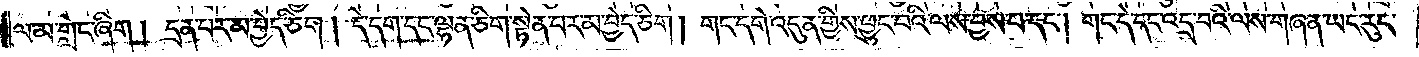ལ་མ་གླེང་ཞིག། དྲན་པར་མ་བྱེད་ཅིག། དེ་དག་དང་ལྷན་ཅིག་སྟེན་པར་མ་བྱེད་ཅིག། གང་དགེ་འདུན་གྱིས་ཕྱུང་བའི་ལས་བྱས་པ་དང༌། གང་དེ་དང་འདྲ་བའི་ལས་གཞན་ཡང་རུང་
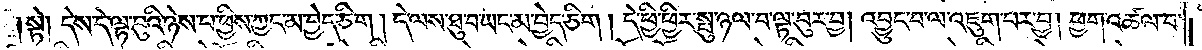སྟེ༑ དེས་དེ་ལྟ་བུའི་ཉེས་པ་ཕྱིས་ཀྱང་མ་བྱེད་ཅིག། དེ་ལས་ཐུ་བ་ཡང་མ་བྱེད་ཅིག། དེ་ཕྱི་ཕྱིར་སྤུ་ཉལ་བ་ལྟ་བུར་བྱ། འབྱུང་བ་ལ་འཇུག་པར་བྱ། ཕྱག་འཚལ་བ་
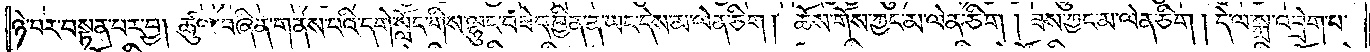ཉེ་བར་བསྟན་པར་བྱ། ཚུལ་བཞིན་གནས་པའི་དགེ་སློང་གིས་ལྷུང་བཟེད་བྱིན་ན་ཡང་དེས་མ་ལེན་ཅིག། ཆོས་གོས་ཀྱང་མ་ལེན་ཅིག །ཟས་ཀྱང་མ་ལེན་ཅིག །དེ་ལ་སྐྲ་འབྲེག་པ་
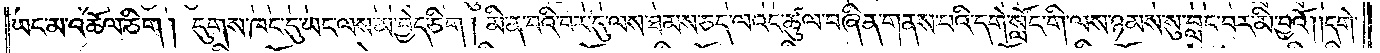ཡང་མ་འཆོལ་ཅིག། དུགས་ཁང་དུ་ཡང་ལས་མ་བྱེད་ཅིག། མི་ན་བའི་བར་དུ་ལས་ཐམས་ཅད་ལའང་ཚུལ་བཞིན་གནས་པའི་དགེ་སློང་གིས་ལས་ཉམས་སུ་བླང་བར་མི་བྱའོ། །དགེ་
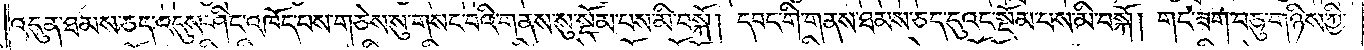འདུན་ཐམས་ཅད་འདུས་ཤིང་འཁོད་པས་གཅེས་སུ་གསང་བའི་གནས་སུ་སྡོམ་པས་མི་བསྐོ། དབང་གི་གནས་ཐམས་ཅད་དུའང་སྡོམ་པས་མི་བསྐོ། གང་ཟག་བཅུ་གཉིས་ཀྱི་
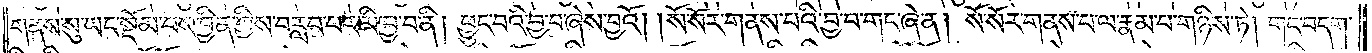གནས་སུ་ཡང་སྡོམ་པས་བྱིན་གྱིས་བརླབ་པར་མི་བྱ་བ་ནི། ཕྱུང་བའི་བྱ་བ་ཞེས་བྱའོ། །སོ་སོར་གནས་པའི་བྱ་བ་གང་ཞེ་ན། སོ་སོར་གནས་པ་ལ་རྣམ་པ་གཉིས་ཏེ། གང་བདག་
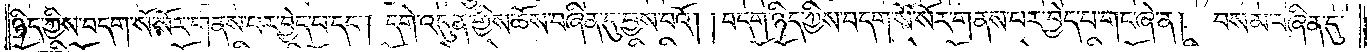ཉིད་ཀྱིས་བདག་སོ་སོར་གནས་པར་བྱེད་པ་དང༌། དགེ་འདུན་གྱིས་ཆོས་བཞིན་དུ་བྱས་པའོ། །བདག་ཉིད་ཀྱིས་བདག་སོ་སོར་གནས་པར་བྱེད་པ་གང་ཞེ་ན། བསམ་བཞིན་དུ་
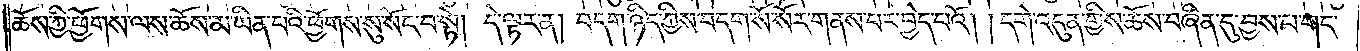ཆོས་ཀྱི་ཕྱོགས་ལས་ཆོས་མ་ཡིན་པའི་ཕྱོགས་སུ་སོང་བ་སྟེ། དེ་ལྟར་ན། བདག་ཉིད་ཀྱིས་བདག་སོ་སོར་གནས་པར་བྱེད་པའོ། །དགེ་འདུན་གྱིས་ཆོས་བཞིན་དུ་བྱས་པ་གང་
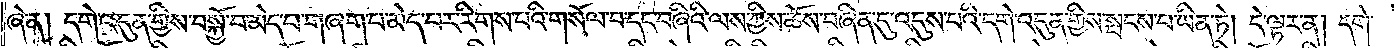ཞེ་ན། དགེ་འདུན་གྱིས་བསྐྱོ་བ་མེད་པ་གཞག་པ་མེད་པར་རིགས་པའི་གསོལ་བ་དང་བཞིའི་ལས་ཀྱིས་ཆོས་བཞིན་དུ་འདུས་པའི་དགེ་འདུན་གྱིས་སྤངས་པ་ཡིན་ཏེ། དེ་ལྟར་ན། དགེ་
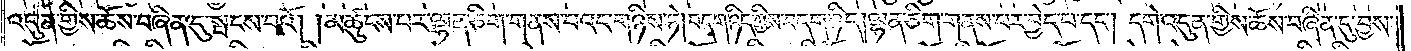འདུན་གྱིས་ཆོས་བཞིན་དུ་སྤངས་པའོ། །མཚུངས་པར་ལྷན་ཅིག་གནས་པའང་གཉིས་ཏེ། བདག་ཉིད་ཀྱིས་བདག་ཉིད། ལྷན་ཅིག་གནས་པར་བྱེད་པ་དང༌། དགེ་འདུན་གྱིས་ཆོས་བཞིན་དུ་བྱས་
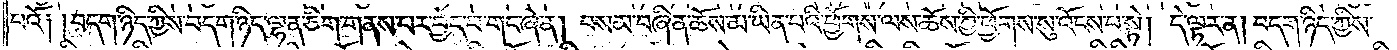པའོ། །བདག་ཉིད་ཀྱིས་བདག་ཉིད་ལྷན་ཅིག་གནས་པར་བྱེད་པ་གང་ཞེ་ན། བསམ་བཞིན་ཆོས་མ་ཡིན་པའི་ཕྱོགས་ལས་ཆོས་ཀྱི་ཕྱོགས་སུ་འོངས་པ་སྟེ། དེ་ལྟར་ན། བདག་ཉིད་ཀྱིས་
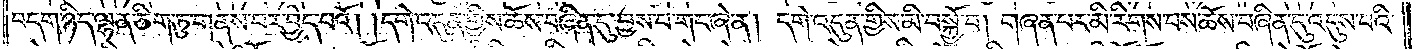བདག་ཉིད་ལྷན་ཅིག་ཏུ་གནས་པར་བྱེད་པའོ། །དགེ་འདུན་གྱིས་ཆོས་བཞིན་དུ་བྱས་པ་གང་ཞེ་ན། དགེ་འདུན་གྱིས་མི་བསྐྱོ་བ། གཞན་པར་མི་རིགས་པས་ཆོས་བཞིན་དུ་འདུས་པའི་
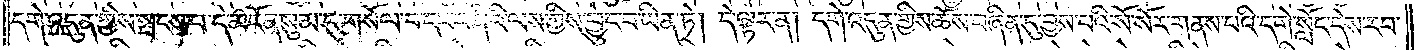དགེ་འདུན་གྱིས་སྤངས་པ་དེ་མངོན་སུམ་དུ་གསོལ་བ་དང་བཞིའི་ལས་ཀྱིས་ཕྱུང་བ་ཡིན་ཏེ། དེ་ལྟར་ན། དགེ་འདུན་གྱིས་ཆོས་བཞིན་དུ་བྱས་པའི་སོ་སོར་གནས་པའི་དགེ་སློང་དེས་རབ་
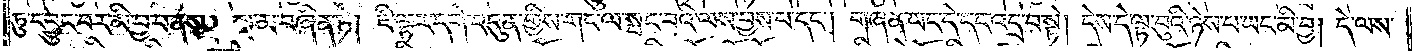ཏུ་དབྱུང་བར་མི་བྱ་བ་ནས། སྔ་མ་བཞིན་ཏེ། ཇི་ལྟར་དགེ་འདུན་གྱིས་གང་ལ་སྤང་བའི་ལས་བྱས་པ་དང༌། གཞན་ཡང་དེ་དང་འདྲ་བ་སྟེ། དེས་དེ་ལྟ་བུའི་ཉེས་པ་ཡང་མི་བྱ། དེ་ལས་
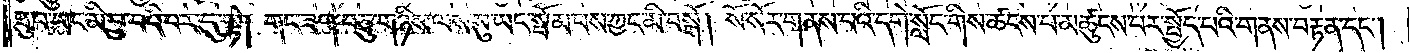ཐུ་བ་ཡང་མི་བྱ་བའི་བར་དུ་སྟེ། གང་ཟག་བཅུ་གཉིས་ལས་སུ་ཡང་སྦོམ་པས་ཀྱང་མི་བསྒོ། སོ་སོར་གནས་པའི་དགེ་སློང་གིས་ཚངས་པ་མཚུངས་པར་སྤྱོད་པའི་གནས་བརྟན་དང༌།
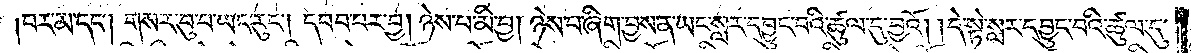བར་མ་དང༌། གསར་བུ་པ་ཡང་རུང༌། དབབ་པར་བྱ། ཉེས་པ་མི་བྱ། ཉེས་པ་ཞིག་བྱས་ན་ཡང་སླར་དབྱུང་བའི་ཚུལ་དུ་བྱའོ། །དེ་སྟེ་སླར་དབྱུང་བའི་ཚུལ་དུ་
